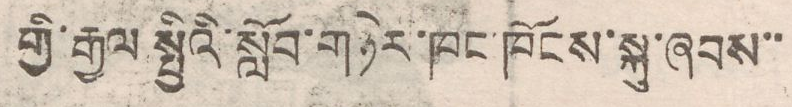གྱི་རྒྱལ་སྤྱིའི་སློབ་གཉེར་ཁང་ཁོངས་སྐུ་ཞབས་་
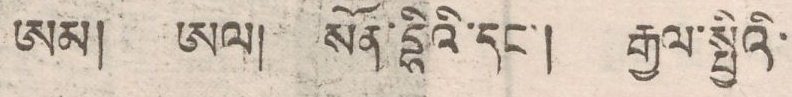ཨམ། ཨལ། སོན་དྷིའི་དང་། རྒྱལ་སྤྱིའི་
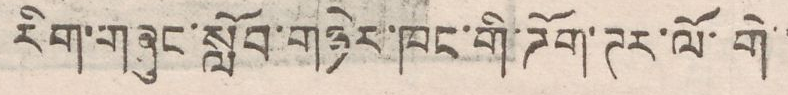རིག་གཞུང་སློབ་གཉེར་ཁང་གི་ཌོག་ཊར་ལོ་གེ་
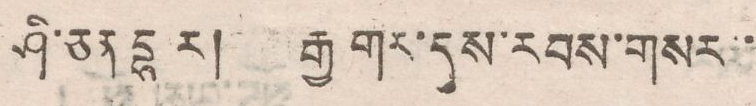ཤི་ཅན་དྷ ར། རྒྱ གར་དུས་རབས་གསར་་
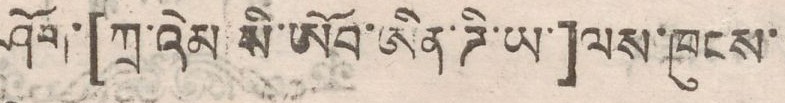ཤོད་[ཀྲ་འེམ སི་ཨོབ་ཨིན་ཌི་ཡ]ལས་ཁུངས་
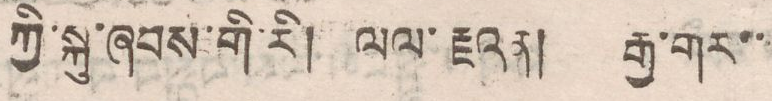ཀྱི་སྐུ་ཞབས་གི་རི། ལལ་རྗའན། རྒྱ་གར་་
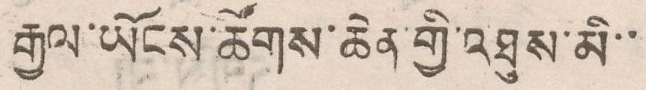རྒྱལ་ཡོངས་ཚོགས་ཆེན་གྱི་འཐུས་མི་་
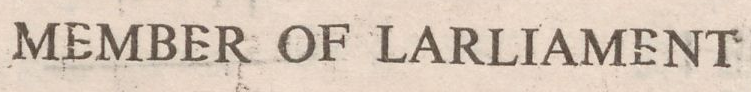MEMBER OF LARLIAMENT
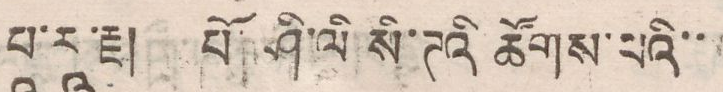པཱ་རཱ་རྗ། པོ་ཤི་ལི སི་ཊའི ཚོགས་པའི་་
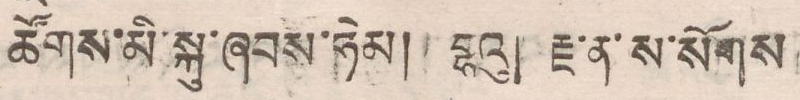ཚོགས་མི་སྐུ་ཞབས་ཧེམ། དྷའུ། རྗ་ན་ས་སོགས
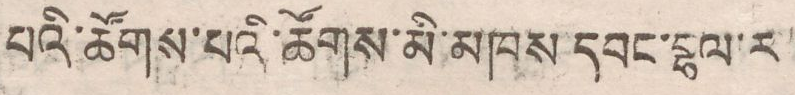པའི་ཚོགས་པའི་ཚོགས་མི་མཁས་དབང་བྷལ་ར
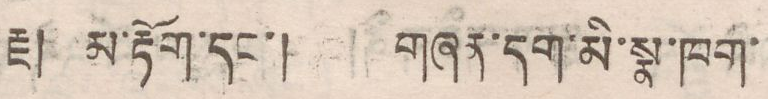རྗ། མ་རྟོག་དང་། གཞན་དག་མི་སྣ་ཁག་
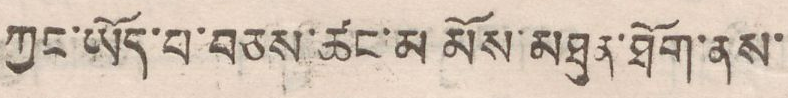ཀྱང་ཡོད་པ་བཅས་ཚང་མ་ མོས་མཐུན་ཐོག་ནས་
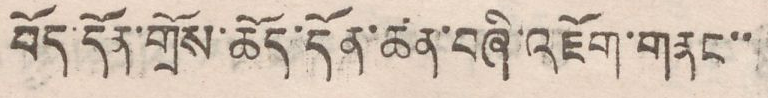བོད་དོན་གྲོས་ཆོད་དོན་ཚན་བཞི་འཇོག་གནང་་
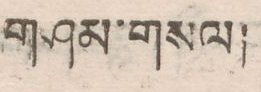གཤམ་གསལ།
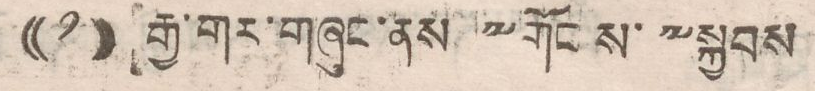((༡)) རྒྱ་གར་གཞུང་ནས་༸གོང་ས་༸སྐྱབས
